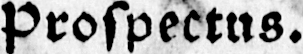Prospectus.
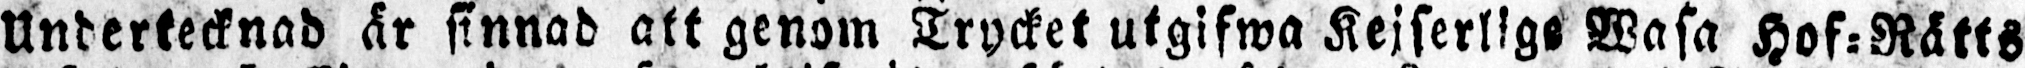Undertecknad är sinnad att genom Trycket utgifwa Kejserlige Wasa Hof-Rätts
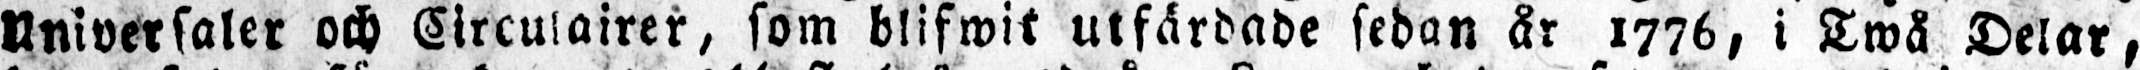Universaler och Circulairer, som blifwit utfärdade sedan år 1776, i Twå Delar,
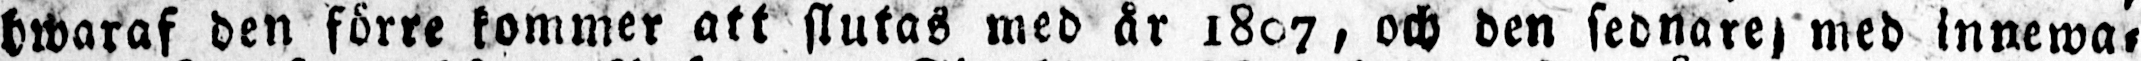hwaraf den förre kommer att slutas med år 1807, och den sednare med innewa-
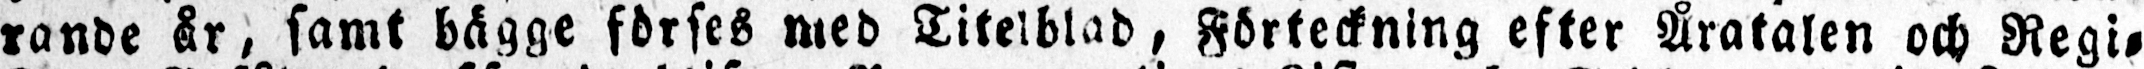rande år, samt bägge förses med Titelblad, Förteckning efter Åratalen och Regi-
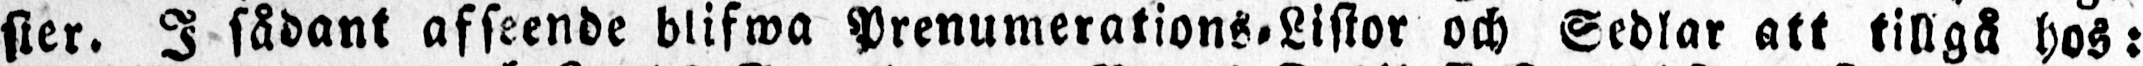ster. I sådant afseende blifwa Prenumerations-Listor och Sedlar att tillgå hos:
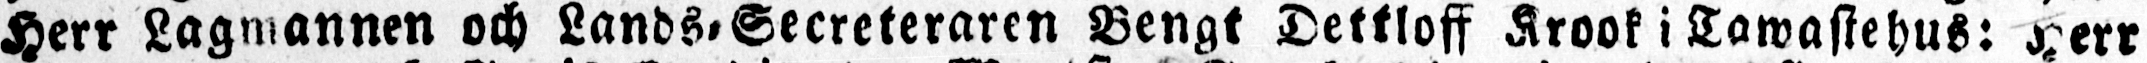Herr Lagmannen och Lands-Secreteraren Bengt Dettloff Krook i Tawastehus: Herr
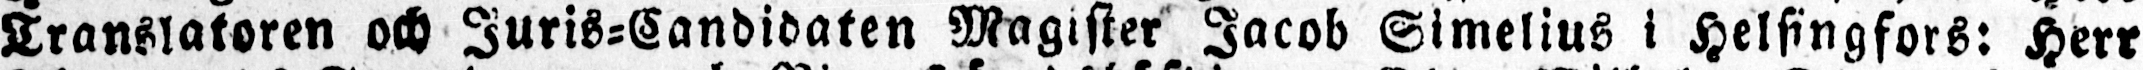Translatoren och Juris-Candidaten Magister Jacob Simelius i Helsingfors: Herr
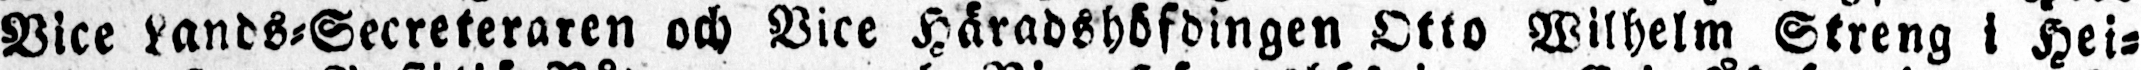Vice Lands-Secreteraren och Vice Häradshövdingen Otto Wilhelm Streng i Hei-
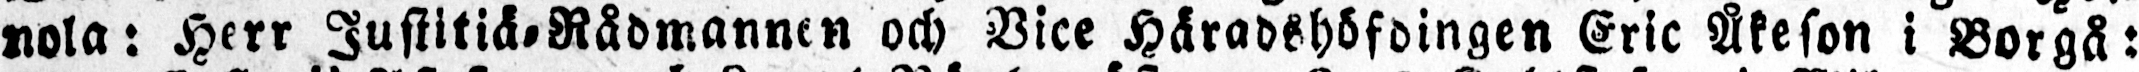nola: Herr Justitiä-Rådmannen och Vice Häradshöfdingen Eric Åkeson i Borgå:
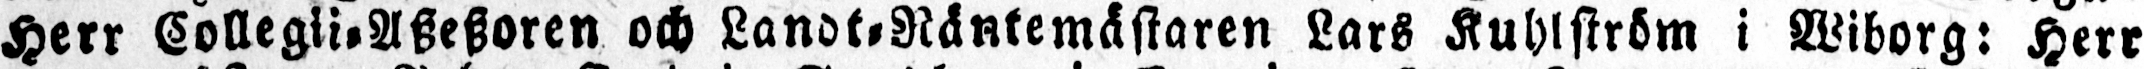Herr Collegii-Aszeszoren och Landt-Räntemästaren Lars Kuhlström i Wiborg: Herr
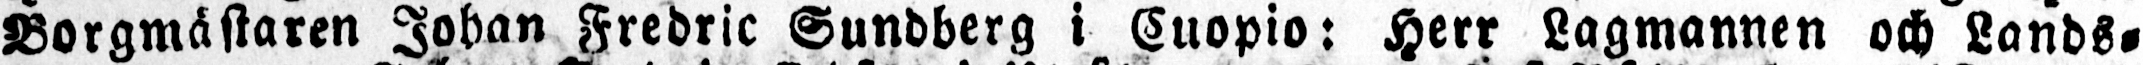Borgmästaren Johan Fredric Sundberg i Cuopio: Herr Lagmannen och Lands-
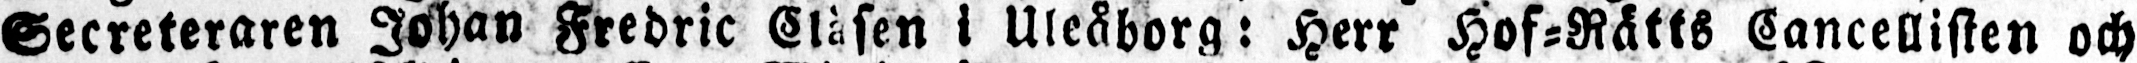Secreteraren Johan Fredric Clåsen i Uleåborg: Herr Hof-Rätts Cancellisten och
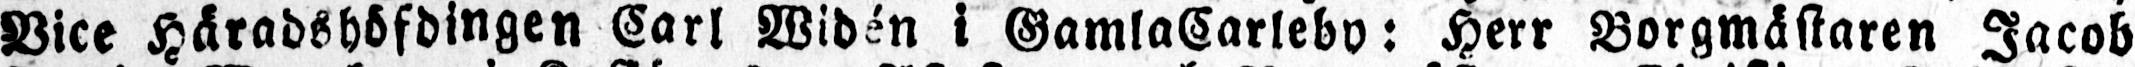Vice Häradshöfdingen Carl Widén i GamlaCarleby: Herr Borgmästaren Jacob
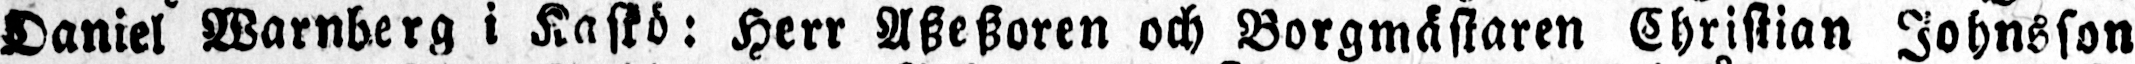Daniel Warnberg i Kaskö: Herr Aszeszoren och Borgmästaren Christian Johnsson
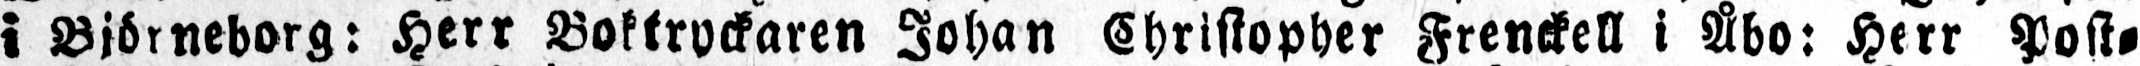i Björneborg: Herr Boktryckaren Johan Christopher Frenckell i Åbo: Herr Post-
